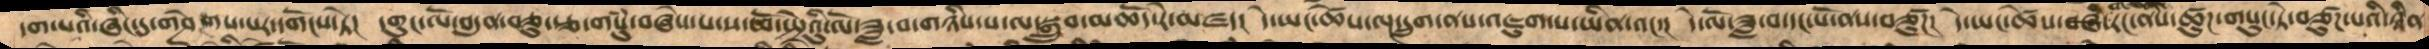དག་པའི་ཞིང་དུ་གཤེགས་པར་དགོངས་ཏེ།  དགུང་ལོ་བདུན་ཅུ་རྩ་གསུཾ་བཞེས་པ་ས་ཕོ་སྤྲེའུ་ལོ་ཟླ་བ་གཉིས་པ་ལ་སྒྲུབ་མཆོད་རེ་མཛད།  དེ་ཡང་ཚེས་ལྔ་དྲུག་ནས་འཛུག་པ་ཡིན་འང་།  དེ་ལོ་ཟླ་བ་དང་པོ་ནས་བཙུཌ།  དེ་ཡང་ཚེས་བཞི་རིང་ནས་ཚུཌ་གསུང་ཏེ་བཙུཌ་པའི་ཉིན
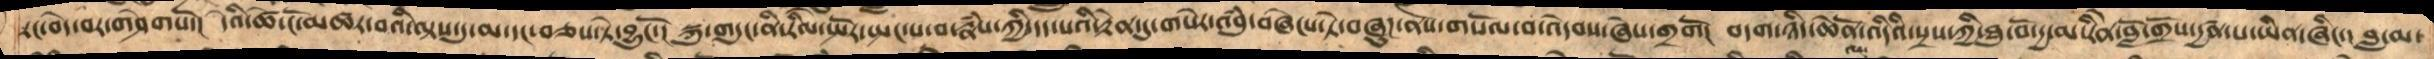རང་བདེ་བར་གཤེགསོ།  དེའི་ཚེ་ངོ་མཚར་བའི་ལྟས་དུ་མ་དང་བཅས་སྟེ་བྱུངོ་།  སྐུ་གདུང་ནི་རིལ་སྤོར་སྤངས་བ་རྣཾས་ཀྱི་དད་པའི་རྟེན་དུ་གསེར་འབུཾ་བཞེངས་ཏེ་བཞུཌ་ནས་གསོལ་བ་འདེབས་ཞེས་གྲགོ།  བདག་ཉིད་ཆེནོ་འདིའི་སྲས་ཀྱི་ཐུ་བོ་དྱ་མ་རིནེ་བློ་གྲོས་དྱཚན་པ་ཡིན་ཞིང་།  བླ་མ་
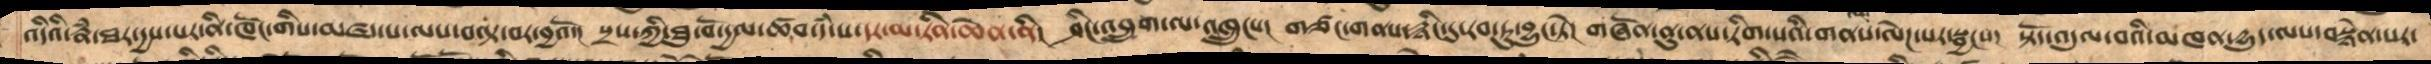འདིའི་རྣཾ་ཐར་དྱས་པར་ནི་ཁོང་གིས་མཛད་པ་ལས་བལྟ་བར་བྱའོ།  སྲས་ཀྱི་ཐུ་བོ་དྱལ་ཚབ་དཾ་པ་དར་མ་རིན་ཆེན་ནི།  ཤིང་འབྲུག་ལ་འཁྲུངས།  གཙང་གནས་རྙིང་དུ་རབ་ཏུ་བྱུང་ཏེ།  གཞོན་ནུ་ནས་རིག་པའི་གནས་ལ་ལེཌ་པར་སྦྱངས།  སྟོད་འདུལ་བའི་མཁན་དྱུད་ལས་བསྙེན་པར་
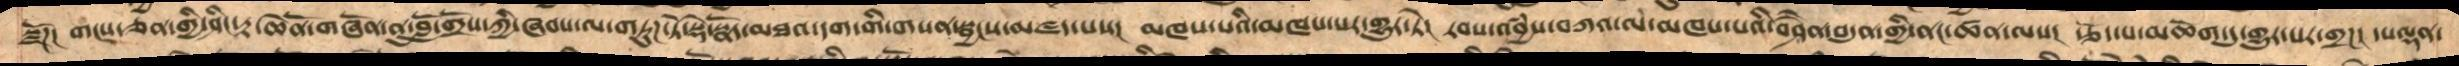སྫོཌ།  གངས་ཅན་གྱི་ཤིང་རྟ་ཆེནོ་གཞོན་ནུ་བློ་གྲོས་ཀྱི་ཞབས་ལ་གཏུཌ་ཏེ་སྡེ་སྣོད་མཐའ་དག་གི་གསན་སྦྱངས་མཛད་པས།  མཁས་པའི་མཁས་པར་གྱུར་ཏེ།  རབས་འབྱཾས་བཀའ་ལ་མཁས་པའི་བཤཻན་བདུན་གྱི་ནང་ཚན་ལས།  རྩོད་པ་མཆོག་དུ་གྱུར་པར་གྲཌ།  དཔལྡན་
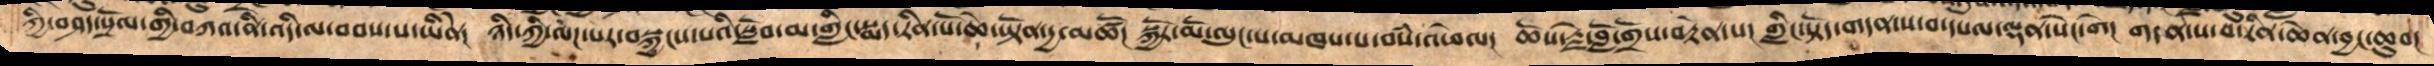ཀྱི་བཤད་སྲོལ་གྱི་བཀའ་ནི་འདི་ལ་བབས་པ་ཡིནེ།  ཉིད་ཀྱི་ལེཌ་པར་བསྐྱངས་པའི་སློབ་མ་གླིང་སྨད་རིན་པོ་ཆེ་ཡྟོན་དྱ་མཚོ།  སྐྱོར་མོ་ལུང་པ་མཁས་པ་བསཾ་འཕེལ།  ཆོས་རྗེ་བློ་གྲོས་བརྟེན་པ།  གླིང་སྟོད་གདན་ས་བ་དཔལ་ལྡན་སེང་གེ།  གདན་ས་བ་རིན་ཆེན་བྱང་ཆུབ།
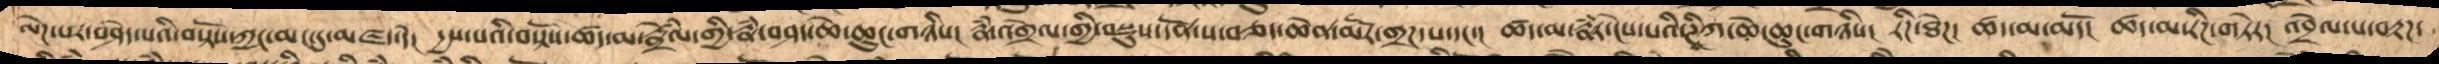ལེཌ་པར་བཤད་པའི་བསྟན་བཅོས་ཀྱང་མང་དུ་མཛད་དེ།  དྱས་པའི་བསྟན་བཅོས་ཚད་མ་རྣྲེཾལ་གྱི་རྣཾ་བཤད་ཆེ་ཆུང་གཉིས།  རྣཾ་འགྲེལ་གྱིབསྡུས་དོན་ས་བཅད་ཆེན་མོར་གྲཌ་པ་དང་།  ཚད་མ་རྣཾར་ངེས་པའི་ཊཱིཀ་ཆེ་ཆུང་གཉིས།  རིག་ཐེཌ།  ཚད་མ་མདོ།  ཚད་མ་རིཌ་གཏེར།  འབྲེལ་པ་བརྟཌ་་
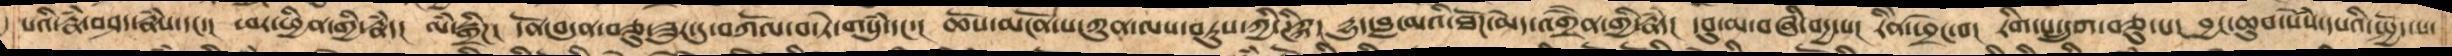པའི་རྣཾ་བཤད་རྣཾས་དང་།  ཕར་ཕྱིན་གྱི་རྣཾད།  ལཾ་སྒྲིཌ།  དོན་བདུན་བཅུ་ཟུར་དུ་བཀོལ་བ་ཏེ་གསུཾ་དང་།  ཆོས་མངོན་པ་ཀུན་ལས་བཏུས་ཀྱི་ཊིཀྐ།  དྱུད་བླ་མའི་ཐོཌ་མེད་འགྲཻན་གྱི་རྣཾད།  དབུ་མ་བཞི་བདྱ་པ། རིནེ་ཕྲེང་བ།  རིག་པ་དྲུག་བཅུ་པ། བྱང་ཆུབ་སེསཾ་དཔའི་སྤྱོད་པ་
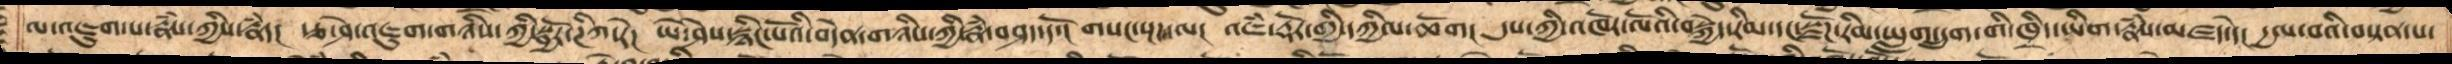ལ་འཇུག་པ་རྣཾས་ཀྱིས་རྣཾད།  རྩ་ཤེ་འཇུག་གཉིས་ཀྱི་སྦྱོར་ཊིཀ་རེ།  ཡེ་ཤེས་སྙིང་པོའི་བདེན་གཉིས་ཀྱི་རྣཾ་བཤད་དོ།  གསང་སྔཌ་ལ།  འཇཾ་རྡོར་གྱི་དཀྱིལ་ཆོག།  དུས་ཀྱིའཁོར་ལོའི་བསྐྱེད་རིམ་དང་སྫོཌ་རིམ་ཡླག་དྲུག་གི་ཁྲིད་ཡིག་རྣཾས་མཛད་དེ།  དྱལ་བའི་བསྟན་པ་
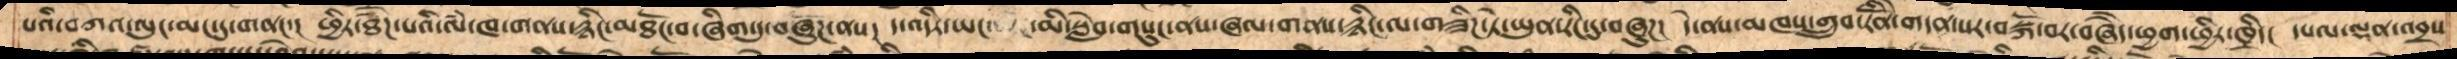པའི་བཀའ་ལུང་མང་དུ་གནང་།  ཕྱིར་ཐེཌ་པའི་ལཾ་ཁ་གནས་རྙིང་མཐོང་བ་ཞིག་དུ་བཞུཌ་ནས།  ད་འདིར་ཡང་  མི་སླེབ་གསུང་ནས་ཞལ་གནས་རྙིང་ལ་གཟིཌ་ཏེ་ཡུན་རིང་དུ་བཞུཌ།  དེ་ནས་མཁས་གྲུབ་རིནོ་ེགདན་སར་བསྐོ་བར་བཞེདེ་ཕྱག་ཕྱིར་ཁྲིད།  དཔལ་ལྡན་འབྲས་
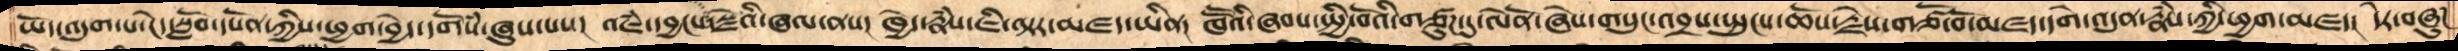ཡོད་འདུག་པ་ངེད་སློབ་དཔོན་ཀྱིས་ཕྱག་བྱེད་དགོསཾ་ཞུས་པས།  འཇཾ་དབྱངས་སྗེའི་ཞལ་ནས།  ཁྱེད་རྣཾས་ཇི་ལྟར་མཛད་ཡིན།   ཁཽའི་ཞབས་སྤྱི་བོའི་གཙུཌ་དུ་ལེནོ་ཞེས་གསུང་འབྲས་སྤུངས་ཆོས་རྗེས་གཙོ་བོ་མཛད་དགེ་འདུན་རྣཾས་ཀྱི་ཕྱག་མཛད།  དེར་བཞུཌ
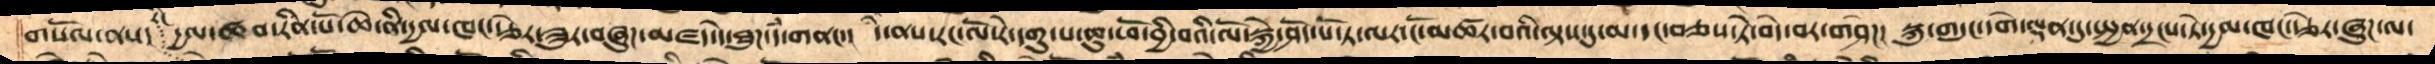གསོལ་ནས། དྱལ་ཚབ་རིན་པོ་ཆེ་ནི་དྱལ་ཁང་རྩེར་ཟུར་བཞུཌ་མཛད་དེ་ཐུཌ་དཾ་གནང་། དེ་ནས་རང་ལོ་རེ་དགུ་པ་ཆུ་ཕོ་བྱི་བའི་ལོ་སྐྱེ་ཤོད་པོ་ཏ་ལར་ངོ་མཚར་བའི་ལྟས་དུ་མ་དང་བཅས་ཏེ་བདེ་བརགཤེཌ།  སྐུ་གདུང་དགེ་ལྡན་དུ་སྤྱན་དྲངས་ཏེ་དྱལ་ཁང་རྩེར་ཞུཌ་ལ་
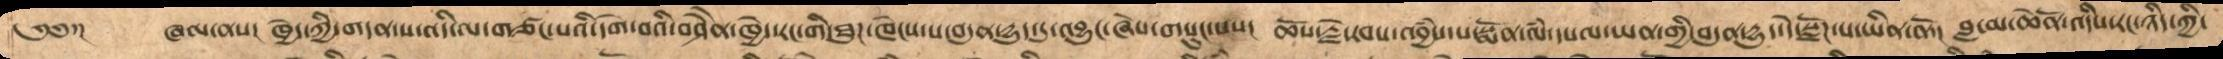༄༅་།    ཞལ་ནས།  ཁྱེད་ཀྱིགདན་ས་འདི་ལ་གཙང་པའི་དགེ་བའི་བཤཻན་ཁྱེད་རང་ཐུཌ་ཁེངས་པ་བདུན་དྱུད་དུ་འབྱུང་ཞེས་གསུང་པས།  ཆོས་རྗེ་རབ་འབྱཾས་པ་སྨོན་ལཾ་དཔལ་ཡན་གྱི་བདུན་དྱུད་དེ་སྫོཌ་པ་ཡིན་ནོ།  བླ་མ་ཆེནོ་འདིས་རང་ཉིད་ཀྱི་
